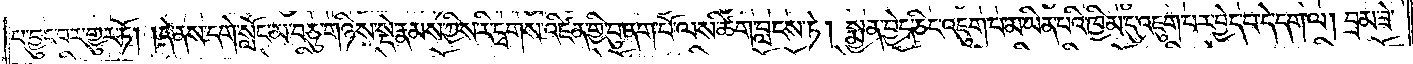པ་བྱུང་བར་གྱུར་ཏོ། །དེ་ནས་དགེ་སློང་མ་བཅུ་གཉིས་སྡེ་རྣམས་ཀྱིས་རི་དྭགས་འཛིན་གྱི་བུ་ནག་པོ་ལས་ཚིག་བླངས་ཏེ། སྨྱན་བྱེད་ཅིང་འཇུག་པ་མ་ཡིན་པའི་ཁྱིམ་དུ་འཇུག་པར་བྱེད་པ་དེ་དག་ལ། བྲལ་ཟེ་
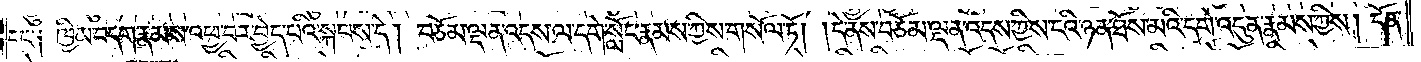དང༌། ཁྱིམ་བདག་རྣམས་འཕྱ་བར་བྱེད་པའི་སྐབས་དེ། བཅོམ་ལྡན་འདས་ལ་དགེ་སློང་རྣམས་ཀྱིས་གསོལ་ཏོ། །དེ་ནས་བཅོམ་ལྡན་འདས་ཀྱིས་ངའི་ཉན་ཐོས་མའི་དགེ་འདུན་རྣམས་ཀྱིས། དོན་
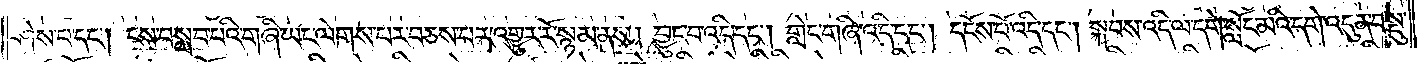ཤེས་པ་དང༌། ངས་བསླབ་པའི་གཞི་ཡང་ལེགས་པར་བཅས་པར་འགྱུར་རོ་སྙམ་ནས། བྱུང་བ་འདི་དང༌། གླེང་གཞི་འདི་དང༌། དངོས་པོ་འདི་དང༌། སྐབས་འདི་ལ་དགེ་སློང་མའི་དགེ་འདུན་བསྡུ་
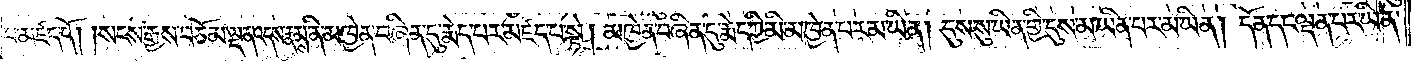བ་མཛད་དོ། །སངས་རྒྱས་བཅོམ་ལྡན་འདས་རྣམས་ནི་མཁྱེན་བཞིན་དུ་རྨེད་པར་མཛད་པ་སྟེ། མཁྱེན་བཞིན་དུ་རྨེད་ཀྱི་མི་མཁྱེན་པར་མ་ཡིན། དུས་སུ་ཡིན་གྱི་དུས་མ་ཡིན་པར་མ་ཡིན། དོན་དང་ལྡན་པར་ཡིན་
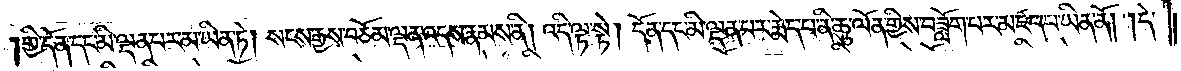གྱི་དོན་དང་མི་ལྡན་པར་མ་ཡིན་ཏེ། སངས་རྒྱས་བཅོམ་ལྡན་འདས་རྣམས་ནི། འདི་ལྟ་སྟེ། དོན་དང་མི་ལྡན་པར་རྨེད་པ་ནི་ཆུ་ལོན་གྱིས་བཟློག་པར་མཛད་པ་ཡིན་ནོ། །དེ་
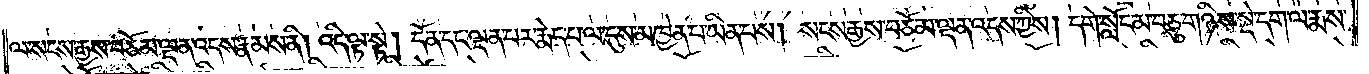ལ་སངས་རྒྱས་བཅོམ་ལྡན་འདས་རྣམས་ནི། འདི་ལྟ་སྟེ། དོན་དང་ལྡན་པར་རྨེད་པ་ལ་དུས་མཁྱེན་པ་ཡིན་པས། སངས་རྒྱས་བཅོམ་ལྡན་འདས་ཀྱིས། དགེ་སློང་མ་བཅུ་གཉིས་སྡེ་དག་ལ་རྨས་
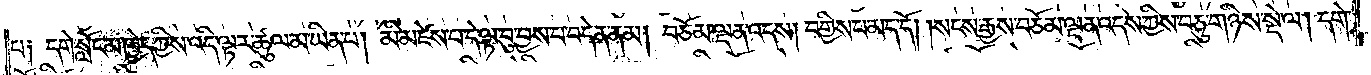པ༑ དགེ་སློང་མ་ཁྱེད་ཀྱིས་འདི་ལྟར་ཚུལ་མ་ཡིན་པ། མི་མཛེས་པ་དེ་ལྟ་བུ་བྱས་པ་བདེན་ནམ། བཅོམ་ལྡན་འདས། བགྱིས་པ་མད་དོ། །སངས་རྒྱས་བཅོམ་ལྡན་འདས་ཀྱིས་བཅུ་གཉིས་སྡེ་ལ། དགེ་
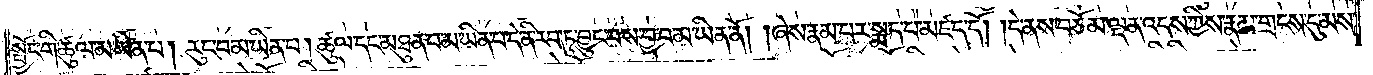སྦྱོང་གི་ཚུལ་མ་ཡིན་པ། རུང་བ་མ་ཡིན་པ། ཚུལ་དང་མཐུན་པ་མ་ཡིན་པ་དེ་ནི་རབ་ཏུ་བྱུང་བས་བྱ་བ་མ་ཡིན་ནོ། །ཞེས་རྣམ་པར་སྨད་པ་མཛད་དོ། །དེ་ནས་བཅོམ་ལྡན་འདས་ཀྱིས་རྣམ་གྲངས་དུ་མས་
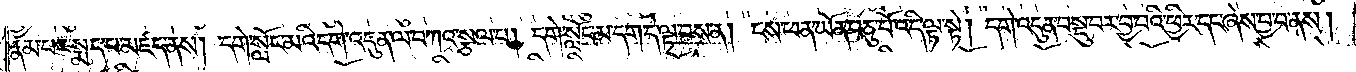རྣམ་པར་སྨད་པ་མཛད་ནས། དགེ་སློང་མའི་དགེ་འདུན་ལ་བཀའ་སྩལ་པ། དགེ་སློང་མ་དག་དེ་ལྟ་བས་ན། ངས་ཕན་ཡོན་བཅུ་པོ་འདི་ལྟ་སྟེ། དགེ་འདུན་བསྡུ་བར་བྱ་བའི་ཕྱིར་དང་ཞེས་བྱ་བ་ནས །
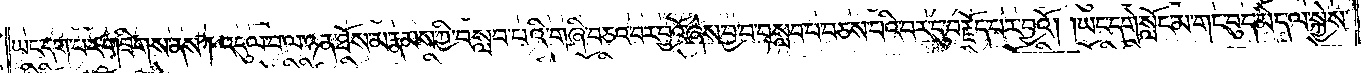ཡང་དག་པར་གཟིགས་ནས། འདུལ་བ་ལ་ཉན་ཐོས་མ་རྣམས་ཀྱི་བསླབ་པའི་གཞི་བཅའ་བར་བྱའོ་ཞེས་བྱ་བ་བསླབ་པ་བཅས་པའི་བར་དུ་བརྗོད་པར་བྱའོ། །ཡང་དགེ་སློང་མ་གང་བུད་མེད་ལ་སྐྱེས་
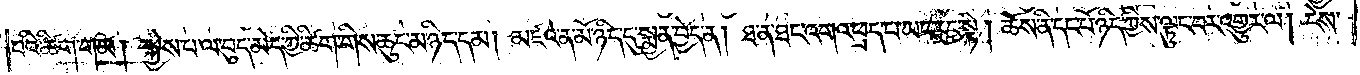པའི་ཚིག་གམ། སྐྱེས་པ་ལ་བུད་མེད་ཀྱི་ཚིག་གིས་ཆུང་མ་ཉིད་དམ། མཛའ་ན་མོ་ཉིད་དུ་སྨྱན་བྱེད་ན། ཐ་ན་ཐང་འགའ་ཕྲད་པ་ཡང་རུང་སྟེ། ཆོས་ནི་དང་པོ་ཉིད་ཀྱིས་ལྟུང་བར་འགྱུར་ལ། ངེས་
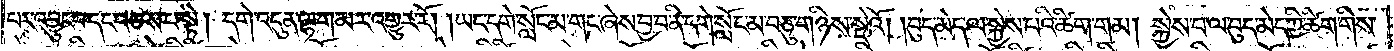པར་འབྱུང་བ་དང་བཅས་པ་སྟེ། དགེ་འདུན་ལྷག་མར་འགྱུར་རོ། །ཡང་དགེ་སློང་མ་གང་ཞེས་བྱ་བ་ནི་དགེ་སློང་མ་བཅུ་གཉིས་སྡེའོ། །བུད་མེད་ལ་སྐྱེས་པའི་ཚིག་གམ། སྐྱེས་པ་ལ་བུད་མེད་ཀྱི་ཚིག་གིས་
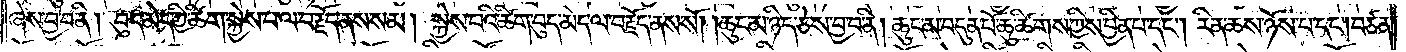ཞེས་བྱ་བ་ནི། བུད་མེད་ཀྱི་ཚིག་སྐྱེས་པ་ལ་བརྗོད་ནས་སམ། སྐྱེས་པའི་ཚིག་བུད་མེད་ལ་བརྗོད་ནས་སོ། །ཆུང་མ་ཉིད་ཅེས་བྱ་བ་ནི། ཆུང་མ་བདུན་པོ་ཆུ་ཚིགས་ཀྱིས་བྱིན་པ་དང༌། རིན་ཆས་ཉོས་པ་དང༌།བཙན་
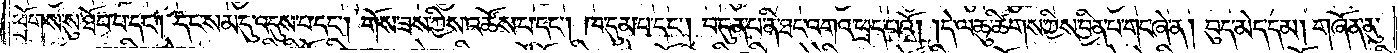ཕྲོགས་སུ་ཐོབ་པ་དང༌། དང་སམ་དུ་འདུས་པ་དང༌། གོས་ཟས་ཀྱིས་འཚོས་པ་དང༌། ཁ་དུམ་པ་དང༌། བདུན་པ་ནི་ཐང་འགའ་ཕྲད་པའོ། །དེ་ལ་ཆུ་ཚེགས་ཀྱིས་བྱིན་པ་གང་ཞེ་ན། བུད་མེད་དམ། གཞོན་ནུ་
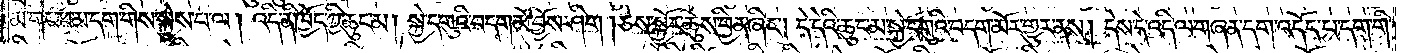མ་གང་ཕ་མ་དག་གིས་སྐྱེས་པ་ལ། འདི་ནི་ཁྱོད་ཀྱི་ཆུང་མ། སྐྱེ་དགུའི་བདག་མོ་བྱོས་ཤིག །ཅེས་སྐྱོར་ཆུས་བྱིན་ཞིང༌། དེ་དེའི་ཆུང་མ་སྐྱེ་དགུའི་བདག་མོར་གྱུར་ནས། དེས་དེ་འདི་ལ་གཞན་དག་འདོད་པ་དག་གི་
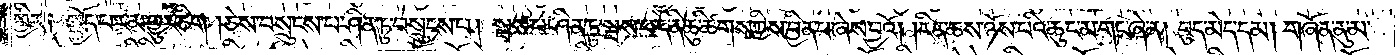ཕྱིར། སྤྱོད་པར་མ་གྱུར་ཅིག །ཅེས་བསྲུངས་པ་ཤིན་ཏུ་བསྲུངས་པ། སྦས་པ་ཤིན་ཏུ་སྦས་པ་དེ་ནི་ཆུ་ཚིགས་ཀྱིས་བྱིན་པ་ཞེས་བྱའོ། །རིན་ཆས་ཉོས་པའི་ཆུང་མ་གང་ཞེ་ན། བུད་མེད་དམ། གཞོན་ནུ་མ་
